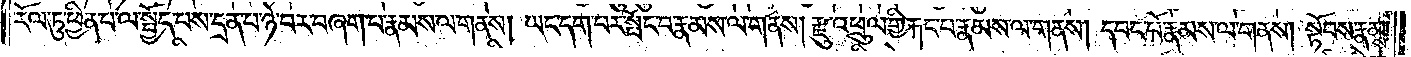རོལ་ཏུ་ཕྱིན་པ་ལ་སྤྱོད་པས་དྲན་པ་ཉེ་བར་བཞག་པ་རྣམས་ལ་གནས། ཡང་དག་པར་སྤོང་བ་རྣམས་ལ་གནས། རྫུ་འཕྲུལ་གྱི་རྐང་པ་རྣམས་ལ་གནས། དབང་པོ་རྣམས་ལ་གནས། སྟོབས་རྣམས་
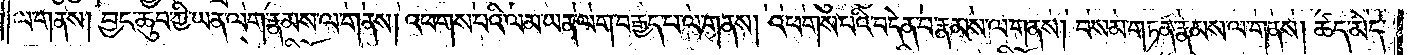ལ་གནས། བྱང་ཆུབ་ཀྱི་ཡན་ལག་རྣམས་ལ་གནས། འཕགས་པའི་ལམ་ཡན་ལག་བརྒྱད་པ་ལ་གནས། འཕགས་པའི་བདེན་པ་རྣམས་ལ་གནས། བསམ་གཏན་རྣམས་ལ་གནས། ཚད་མེད་
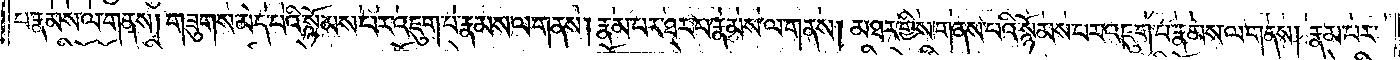པ་རྣམས་ལ་གནས། གཟུགས་མེད་པའི་སྙོམས་པར་འཇུག་བ་རྣམས་ལ་གནས། རྣམ་པར་ཐར་བ་རྣམས་ལ་གནས། མཐར་གྱིས་གནས་པའི་སྙོམས་པར་འཇུག་པ་རྣམས་ལ་གནས། རྣམ་པར་
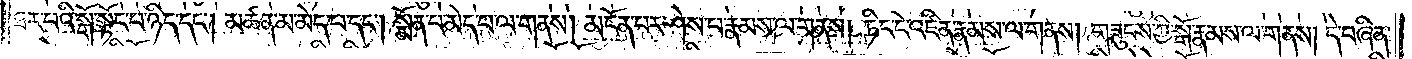ཐར་པའི་སྒོ་སྟོང་པ་ཉིད་དང༌། མཚན་མ་མེད་པ་དང༌། སྨོན་པ་མེད་པ་ལ་གནས། མངོན་པར་ཤེས་པ་རྣམས་ལ་གནས། ཏིང་ངེ་འཛིན་རྣམས་ལ་གནས། གཟུངས་ཀྱི་སྒོ་རྣམས་ལ་གནས། དེ་བཞིན་
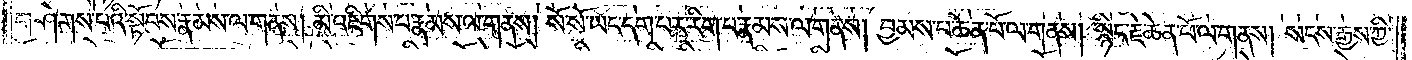གཤེགས་པའི་སྟོབས་རྣམས་ལ་གནས། མི་འཇིགས་པ་རྣམས་ལ་གནས། སོ་སོ་ཡང་དག་པར་རིག་པ་རྣམས་ལ་གནས། བྱམས་པ་ཆེན་པོ་ལ་གནས། སྙིང་རྗེ་ཆེན་པོ་ལ་གནས། སངས་རྒྱས་ཀྱི་
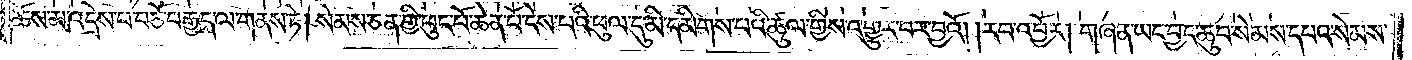ཆོས་མ་འདྲེས་པ་བཅོ་བརྒྱད་ལ་གནས་ཏེ། སེམས་ཅན་གྱི་ཕུང་པོ་ཆེན་པོ་ངེས་པའི་ཕུལ་དུ་མི་དམིགས་པའི་ཚུལ་གྱིས་འགྱུར་བར་བྱའོ། །རབ་འབྱོར། གཞན་ཡང་བྱང་ཆུབ་སེམས་དཔའ་སེམས་
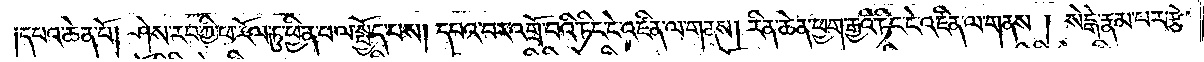དཔའ་ཆེན་པོ། ཤེས་རབ་ཀྱི་ཕ་རོལ་ཏུ་ཕྱིན་པ་ལ་སྤྱོད་པས། དཔའ་བར་འགྲོ་བའི་ཏིང་ངེ་འཛིན་ལ་གནས། རིན་ཆེན་ཕྱག་རྒྱའི་ཏིང་ངེ་འཛིན་ལ་གནས། སེངྒེ་རྣམ་པར་བརྩེ་
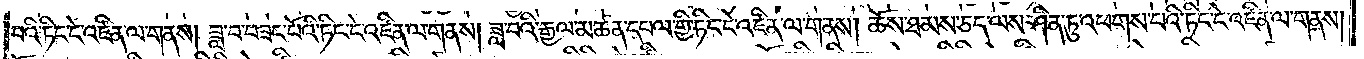བའི་ཏིང་ངེ་འཛིན་ལ་གནས། ཟླ་བ་བཟང་པོའི་ཏིང་ངེ་འཛིན་ལ་གནས། ཟླ་བའི་རྒྱལ་མཚན་དཔལ་གྱི་ཏིང་ངེ་འཛིན་ལ་གནས། ཆོས་ཐམས་ཅད་ལས་ཤིན་ཏུ་འཕགས་པའི་ཏིང་ངེ་འཛིན་ལ་གནས།
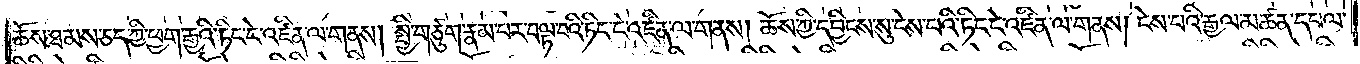ཆོས་ཐམས་ཅད་ཀྱི་ཕྱག་རྒྱའི་ཏིང་ངེ་འཛིན་ལ་གནས། སྤྱི་གཙུག་རྣམ་བར་ལྟ་བའི་ཏིང་ངེ་འཛིན་ལ་གནས། ཆོས་ཀྱི་དབྱིངས་སུ་ངེས་པའི་ཏིང་ངེ་འཛིན་ལ་གནས། ངེས་པའི་རྒྱལ་མཚན་དཔལ་
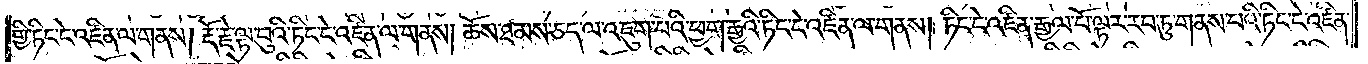གྱི་ཏིང་ངེ་འཛིན་ལ་གནས། རྡོ་རྗེ་ལྟ་བུའི་ཏིང་ངེ་འཛིན་ལ་གནས། ཆོས་ཐམས་ཅད་ལ་འཇུག་པའི་ཕྱག་རྒྱའི་ཏིང་ངེ་འཛིན་ལ་གནས། ཏིང་ངེ་འཛིན་རྒྱལ་བོ་ལྟར་རབ་ཏུ་གནས་པའི་ཏིང་ངེ་འཛིན་
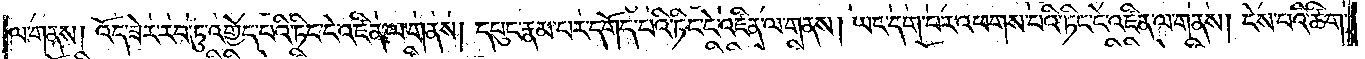ལ་གནས། འོད་ཟེར་རབ་ཏུ་འགྱེད་པའི་ཏིང་ངེ་འཛིན་ལ་གནས། དཔུང་རྣམ་པར་དགོད་པའི་ཏིང་ངེ་འཛིན་ལ་གནས། ཡང་དག་པར་འཕགས་པའི་ཏིང་ངེ་འཛིན་ལ་གནས། ངེས་པའི་ཚིག་
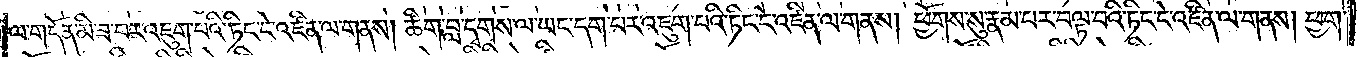ལ་གདོན་མི་ཟ་བར་འཇུག་པའི་ཏིང་ངེ་འཛིན་ལ་གནས། ཚིག་བླ་དྭགས་ལ་ཡང་དག་པར་འཇུག་པའི་ཏིང་ངེ་འཛིན་ལ་གནས། ཕྱོགས་སུ་རྣམ་པར་བལྟ་བའི་ཏིང་ངེ་འཛིན་ལ་གནས། ཕྱག་
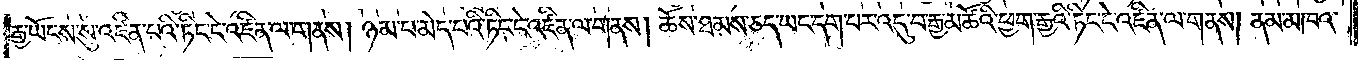རྒྱ་ཡོངས་སུ་འཛིན་ཕའི་ཏིང་ངེ་འཛིན་ལ་གནས། ཉམ་པ་མེད་པའི་ཏིང་ངེ་འཛིན་ལ་གནས། ཆོས་ཐམས་ཅད་ཡང་དག་པར་འདུ་བ་རྒྱ་མཚོའི་ཕྱག་རྒྱའི་ཏིང་ངེ་འཛིན་ལ་གནས། ནམ་མཁའ་
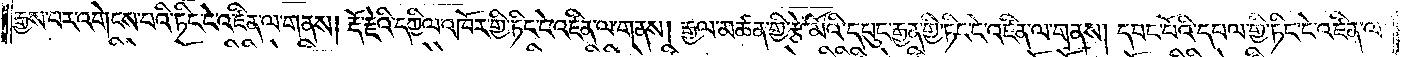རྒྱས་པར་འགེངས་པའི་ཏིང་ངེ་འཛིན་ལ་གནས། རྡོ་རྗེའི་དཀྱིལ་འཁོར་གྱི་ཏིང་ངེ་འཛིན་ལ་གནས། རྒྱལ་མཚན་གྱི་རྩེ་མོའི་དཔུང་རྒྱན་གྱི་ཏིང་ངེ་འཛིན་ལ་གནས། དབང་བོའི་དཔལ་གྱི་ཏིང་ངེ་འཛིན་ལ་
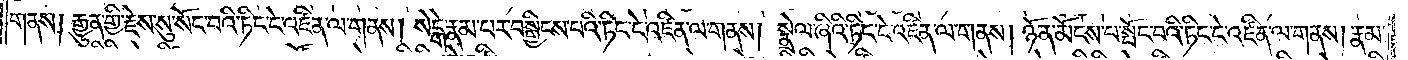གནས། རྒྱུན་གྱི་རྗེས་སུ་སོང་བའི་ཏིང་ངེ་འཛིན་ལ་གནས། སེངྒེ་རྣམ་པར་བསྒྱིངས་པའི་ཏིང་ངེ་འཛིན་ལ་གནས། སྣྲེལ་ཞིའི་ཏིང་ངེ་འཛིན་ལ་གནས། ཉོན་མོངས་པ་སྤོང་བའི་ཏིང་ངེ་འཛིན་ལ་གནས། རྣམ་
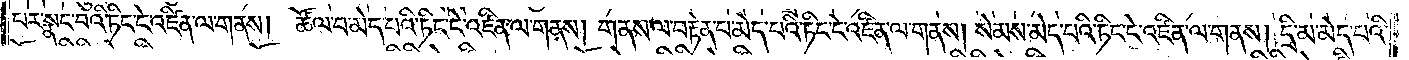པར་སྣང་བའི་ཏིང་ངེ་འཛིན་ལ་གནས། ཚོལ་བ་མེད་པའི་ཏིང་ངེ་འཛིན་ལ་གནས། གནས་ལ་བརྟེན་པ་མེད་པའི་ཏིང་ངེ་འཛིན་ལ་གནས། སེམས་མེད་པའི་ཏིང་ངེ་འཛིན་ལ་གནས། དྲི་མ་མེད་པའི་
